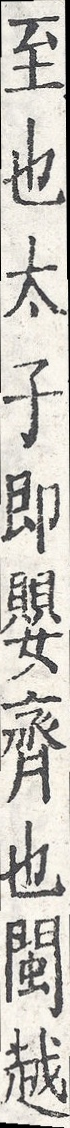至也太子卽嬰齊也閩越
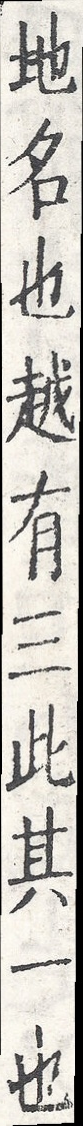地名也越有三此其一也
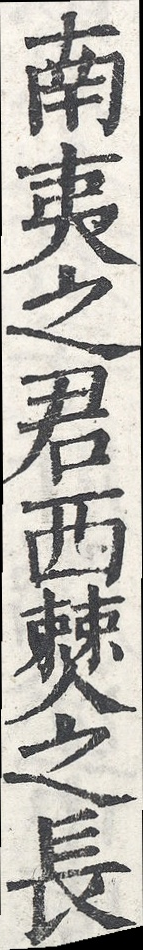南夷之君西僰之長
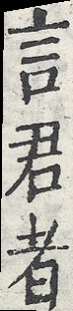言君者
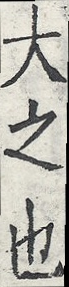大之也
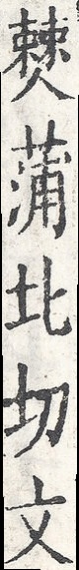僰蒲北切文
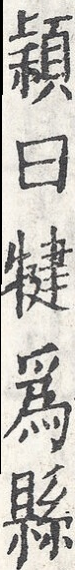穎曰犍為縣
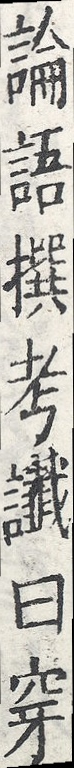論語撰考讖曰穿
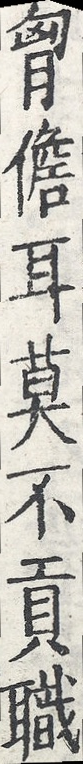胸儋耳莫不貢職
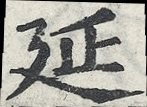延
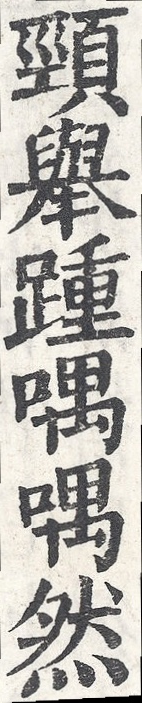頸舉踵喁喁然
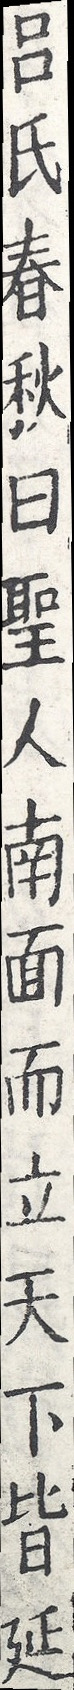呂氏春秋曰聖人南面而立天下皆延
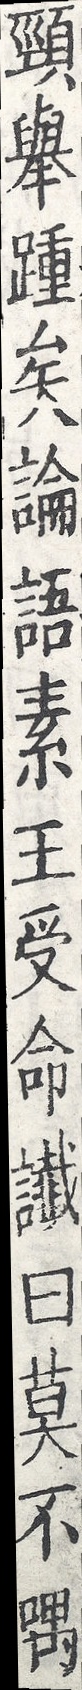頸舉踵矣論語素王受命讖曰莫不喁
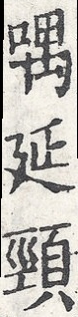喁延頸
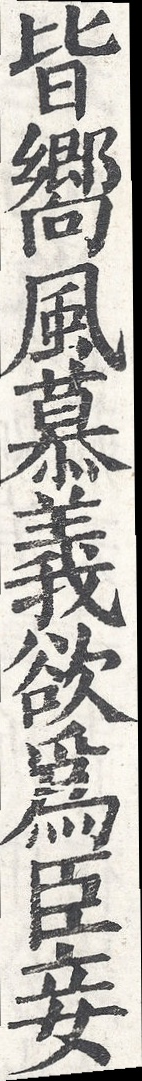皆嚮風慕義欲為臣妾
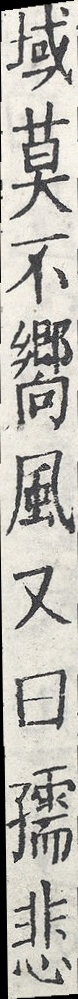域莫不嚮風又曰孺悲
